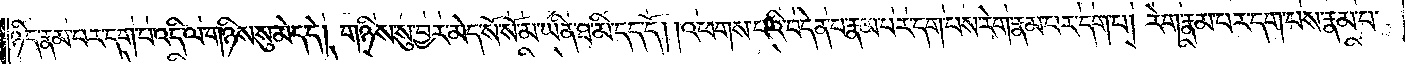ཉིད་རྣམ་པར་དག་པ་འདི་ལ་གཉིས་སུ་མེད་དེ། གཉིས་སུ་བྱར་མེད་སོ་སོ་མ་ཡིན་ཐ་མི་དད་དོ། །འཕགས་པའི་བདེན་པ་རྣམ་པར་དག་པས་རེག་རྣམ་པར་དག་པ། རེག་རྣམ་པར་དག་པས་རྣམ་པ་
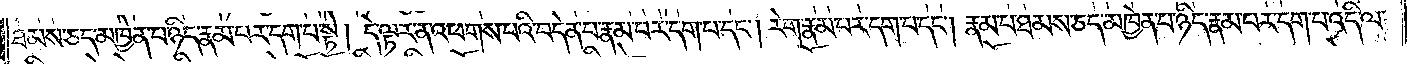ཐམས་ཅད་མཁྱེན་པ་ཉིད་རྣམ་པར་དག་པ་སྟེ། དེ་ལྟར་ན་འཕགས་པའི་བདེན་པ་རྣམ་པར་དག་པ་དང༌། རེག་རྣམ་པར་དག་པ་དང༌། རྣམ་པ་ཐམས་ཅད་མཁྱེན་པ་ཉིད་རྣམ་པར་དག་པ་འདི་ལ་
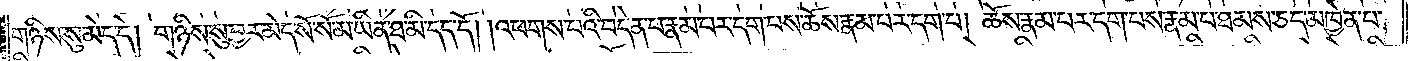གཉིས་སུ་མེད་དེ། གཉིས་སུ་བྱར་མེད་སོ་སོ་མ་ཡིན་ཐ་མི་དད་དོ། །འཕགས་པའི་བདེན་པ་རྣམ་པར་དག་པས་ཆོས་རྣམ་པར་དག་པ། ཆོས་རྣམ་པར་དག་པས་རྣམ་པ་ཐམས་ཅད་མཁྱེན་པ་
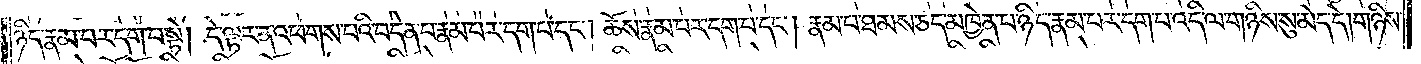ཉིད་རྣམ་པར་དག་པ་སྟེ། དེ་ལྟར་ན་འཕགས་པའི་བདེན་པ་རྣམ་པར་དག་པ་དང༌། ཆོས་རྣམ་པར་དག་པ་དང༌། རྣམ་པ་ཐམས་ཅད་མཁྱེན་པ་ཉིད་རྣམ་པར་དག་པ་འདི་ལ་གཉིས་སུ་མེད་དེ། གཉིས་
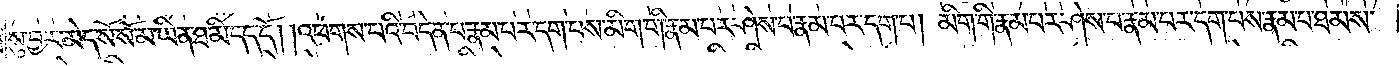སུ་བྱར་མེད་སོ་སོ་མ་ཡིན་ཐ་མི་དད་དོ། །འཕགས་པའི་བདེན་པ་རྣམ་པར་དག་པས་མིག་གི་རྣམ་པར་ཤེས་པ་རྣམ་པར་དག་པ། མིག་གི་རྣམ་པར་ཤེས་པ་རྣམ་པར་དག་པས་རྣམ་པ་ཐམས་
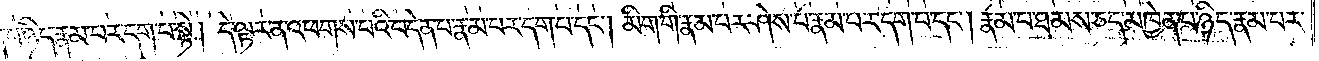ཅད་མཁྱེན་པ་ཉིད་རྣམ་པར་དག་པ་སྟེ། དེ་ལྟར་ན་འཕགས་པའི་བདེན་པ་རྣམ་པར་དག་པ་དང༌། མིག་གི་རྣམ་པར་ཤེས་པ་རྣམ་པར་དག་པ་དང༌། རྣམ་པ་ཐམས་ཅད་མཁྱེན་པ་ཉིད་རྣམ་པར་
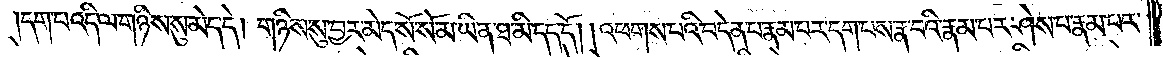དག་པ་འདི་ལ་གཉིས་སུ་མེད་དེ། གཉིས་སུ་བྱར་མེད་སོ་སོ་མ་ཡིན་ཐ་མི་དད་དོ། །འཕགས་པའི་བདེན་པ་རྣམ་པར་དག་པས་རྣ་བའི་རྣམ་པར་ཤེས་པ་རྣམ་པར་
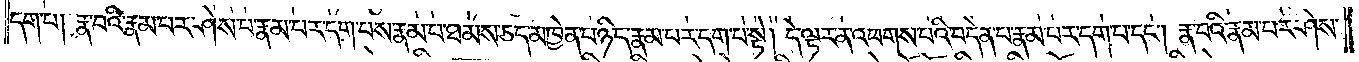དག་པ། རྣ་བའི་རྣམ་པར་ཤེས་པ་རྣམ་པར་དག་པས་རྣམ་པ་ཐམས་ཅད་མཁྱེན་པ་ཉིད་རྣམ་པར་དག་པ་སྟེ། དེ་ལྟར་ན་འཕགས་པའི་བདེན་པ་རྣམ་པར་དག་པ་དང༌། རྣ་བའི་རྣམ་པར་ཤེས་
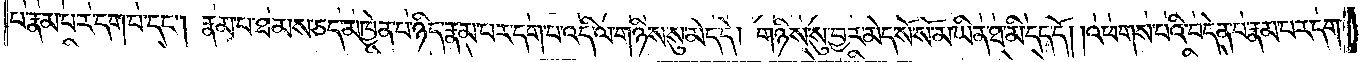པ་རྣམ་པར་དག་པ་དང༌། རྣམ་པ་ཐམས་ཅད་མཁྱེན་པ་ཉིད་རྣམ་པར་དག་པ་འདི་ལ་གཉིས་སུ་མེད་དེ། གཉིས་སུ་བྱར་མེད་སོ་སོ་མ་ཡིན་ཐ་མི་དད་དོ། །འཕགས་པའི་བདེན་པ་རྣམ་པར་དག་
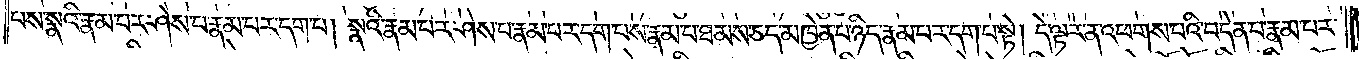པས་སྣའི་རྣམ་པར་ཤེས་པ་རྣམ་པར་དག་པ། སྣའི་རྣམ་པར་ཤེས་པ་རྣམ་པར་དག་པས་རྣམ་པ་ཐམས་ཅད་མཁྱེན་པ་ཉིད་རྣམ་པར་དག་པ་སྟེ། དེ་ལྟར་ན་འཕགས་པའི་བདེན་པ་རྣམ་པར་
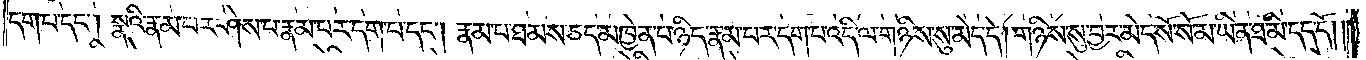དག་པ་དང༌། སྣའི་རྣམ་པར་ཤེས་པ་རྣམ་པར་དག་པ་དང༌། རྣམ་པ་ཐམས་ཅད་མཁྱེན་པ་ཉིད་རྣམ་པར་དག་པ་འདི་ལ་གཉིས་སུ་མེད་དེ། གཉིས་སུ་བྱར་མེད་སོ་སོ་མ་ཡིན་ཐ་མི་དད་དོ། །
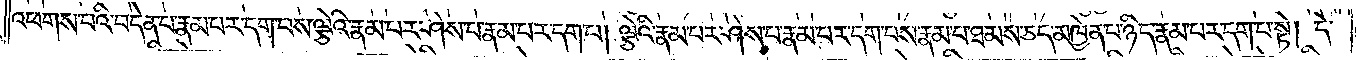འཕགས་པའི་བདེན་པ་རྣམ་པར་དག་པས་ལྕེའི་རྣམ་པར་ཤེས་པ་རྣམ་པར་དག་པ། ལྕེའི་རྣམ་པར་ཤེས་པ་རྣམ་པར་དག་པས་རྣམ་པ་ཐམས་ཅད་མཁྱེན་པ་ཉིད་རྣམ་པར་དག་པ་སྟེ། དེ་
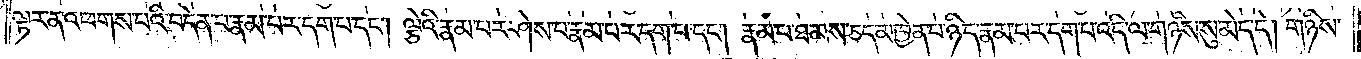ལྟར་ན་འཕགས་པའི་བདེན་པ་རྣམ་པར་དག་པ་དང༌། ལྕེའི་རྣམ་པར་ཤེས་པ་རྣམ་པར་དག་པ་དང༌། རྣམ་པ་ཐམས་ཅད་མཁྱེན་པ་ཉིད་རྣམ་པར་དག་པ་འདི་ལ་གཉིས་སུ་མེད་དེ། གཉིས་
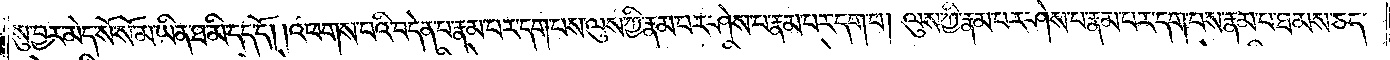སུ་བྱར་མེད་སོ་སོ་མ་ཡིན་ཐ་མི་དད་དོ། །འཕགས་པའི་བདེན་པ་རྣམ་པར་དག་པས་ལུས་ཀྱི་རྣམ་པར་ཤེས་པ་རྣམ་པར་དག་པ། ལུས་ཀྱི་རྣམ་པར་ཤེས་པ་རྣམ་པར་དག་པས་རྣམ་པ་ཐམས་ཅད་
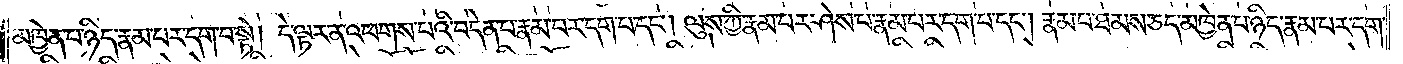མཁྱེན་པ་ཉིད་རྣམ་པར་དག་པ་སྟེ། དེ་ལྟར་ན་འཕགས་པའི་བདེན་པ་རྣམ་པར་དག་པ་དང༌། ལུས་ཀྱི་རྣམ་པར་ཤེས་པ་རྣམ་པར་དག་པ་དང༌། རྣམ་པ་ཐམས་ཅད་མཁྱེན་པ་ཉིད་རྣམ་པར་དག་
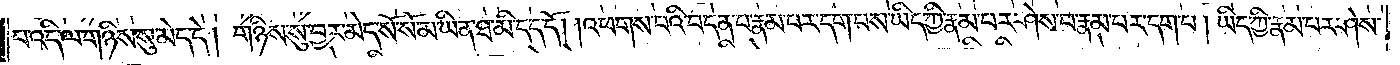པ་འདི་ལ་གཉིས་སུ་མེད་དེ། གཉིས་སུ་བྱར་མེད་སོ་སོ་མ་ཡིན་ཐ་མི་དད་དོ། །འཕགས་པའི་བདེན་པ་རྣམ་པར་དག་པས་ཡིད་ཀྱི་རྣམ་པར་ཤེས་པ་རྣམ་པར་དག་པ། ཡིད་ཀྱི་རྣམ་པར་ཤེས་
